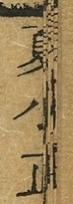夏小正
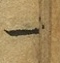一
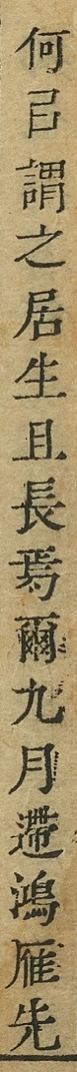何以謂之居生且長焉爾九月遰鴻雁先
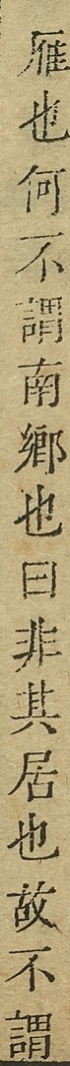雁也何不謂南鄉也曰非其居也故不謂
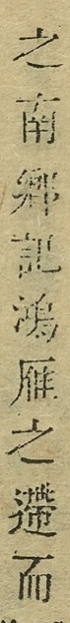之南鄉記鴻雁之遰而
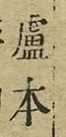盧本
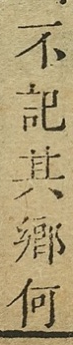不記其鄉何
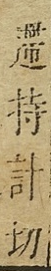遰持計切
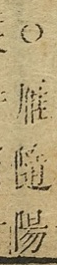○雁隨陽
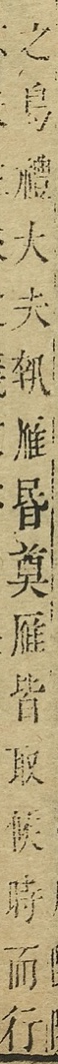之烏禮大夫執雁昏奠雁皆取候時而行
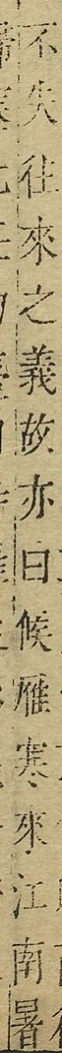不失往來之義故亦曰候雁寒來江南暑
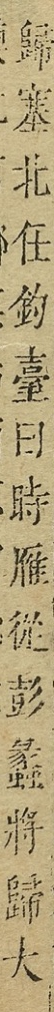歸塞北任釣臺曰時雁從彭蠡將歸大
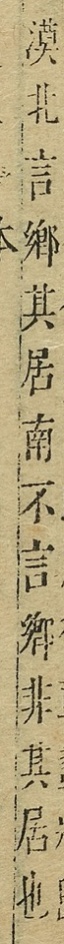漠北言鄉其居南不言鄉非其居也
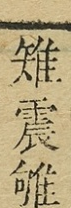雉震雊
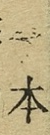一本
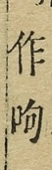作呴
